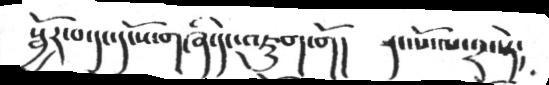སྦྱོར་པ་དང་དངོས་གཞི་དང་འཇུག་གོ།   དང་པོ་ལ་༢་ཏེ།
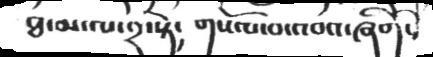ཐ་མ་ལ་༢་སྟེ།   གསོལ་བ་འབའ་ཞིག་དེ
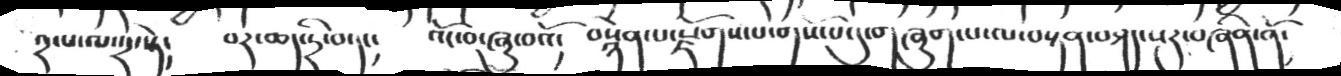༢་པ་ལ་༢་ཏེ།   བར་ཆད་དྲི་བ་དང།   འོང་བ་ཞུ་བའོ།   བསྙེན་པ་རྫོགས་པ་བདས་པ་དུ་གཞུག་པ་ལ་བསྟན་བཤད་སྔར་བཞིན་ནོ།
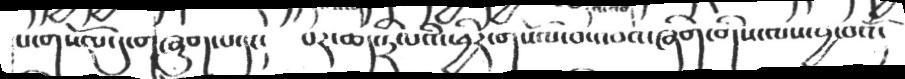པ་གསོལ་དུ་གཞུགས་པ་དང།  བར་ཆད་དྲི་པའི་ཕྱིར་གསོལ་བ་འབའ་ཞིག་བདེས་ལས་བྱ་བའོ།
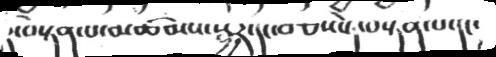ར་བསྟན་པ་མཚམས་སྦྱར་དང་བཅསསྟེ་བསྟན་པ་དང་
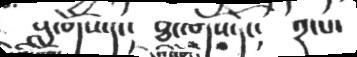བླ་གོས་དང་    ཐང་གོས་དང།   ༢་པ་
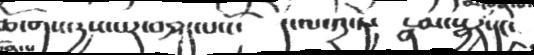ཆོ་གས་རྱས་པར་བཤད་པའོ།    དེ་ལ་༢་ཏེ།  རྣམ་སྦྱར་དང་
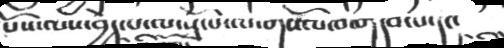པོས་ལས་བྱེད་པ་ལ་སྭོ་པ་ལ་གསོལ་བ་གདབ་པ་དང།
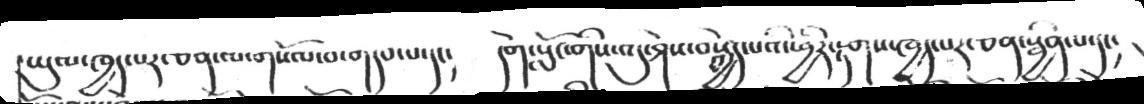ཡུལ་ཁྱད་པར་ཅན་ལ་གསོལ་བ་གདབ་པ་དང།  སགེ་སློང་གིས་འདུ་ཤེས་བསྐྱེད་པའི་ཕྱིར་རྟགས་ཁྱད་པར་ཅན་སྦྱིན་པ་དང།
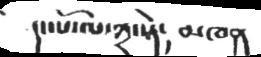དང་པོ་ལ་༣་སྟེ།   མཁན
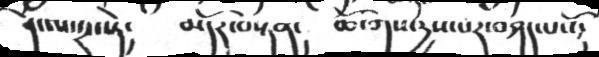དེ་ལ་༢་སྟེ༴   མདོར་བསྟེན༴  ཆོ་ཀས་རྱས་པར་བཤད་པསོ།
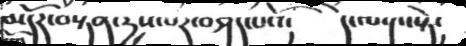མདོར་བསྟན་རྱས་པར་བཤད་པའོ།    དེ་ལ་༩་སྟེ།
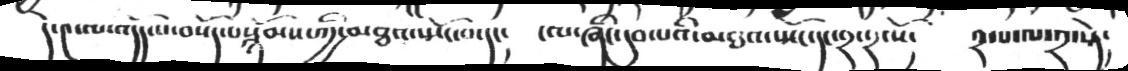དེ་༩་ལ་འདོད་པ་བསོད་བསྙོམས་ཀྱི་མཐའ་སྤོང་བ་དང།   ངལ་ཞིང་དུབ་པའི་མཐའ་ཡོང་དང་༢་༢་སོ།  ༢་པ་ལ་༢་ཏེ།
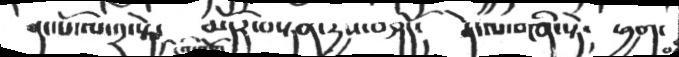དང་པོ་ལ་༢་སྟེ་  མདོར་བསྟན་རྱས་བཤདོ།  དེ་ལ་བཞི་སྟེ།  ཕྱག་
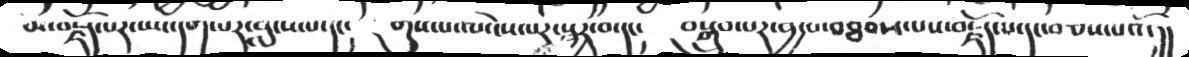མ་བརྗོད་པར་ཡང་དག་པར་བླངས་པ་དང།  གུས་པ་ལ་ངེས་པར་སྦྱར་བ་དང།  བསྒྲུབ་པར་བྱ་བ་བཐབས་པས་བརྗོད་པ་དང་བཅས་པའོ།།
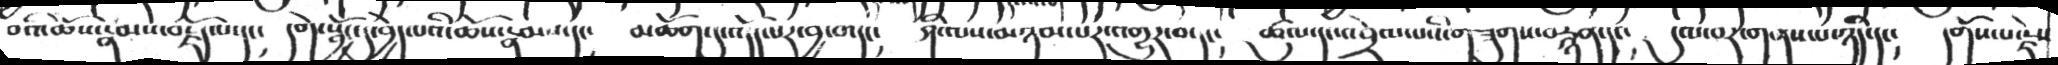བའི་ཆོས་རྣམས་བརྗོད་པལདང་  དགེ་སྦྱོང་དུ་བྱེད་པའི་ཆོས་རྣམས་དང།  མཆོག་དུ་འདོད་པར་བྱ་བ་དང།   ཤི་ལས་མཉམ་པར་གྱུར་པ་དང།   ཚུལ་དང་འབྲེལ་པའི་གཟུགས་བརྙན་དང།   དུམ་པར་གནས་པ་ཉིད་དང།   དགོས་པ་རྗེས
